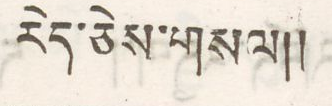རེད་ཅེས་གསལ།།
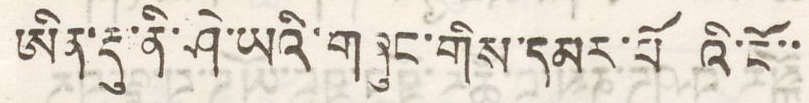ཨིན་རྡུ་ནི་ཤེ་ཡའི་གཞུང་གིས་དམར་པོ འི་ངོ་་་
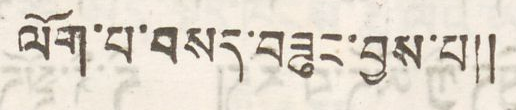ལོག་པ་བསད་བཟུང་བྱས་པ།།
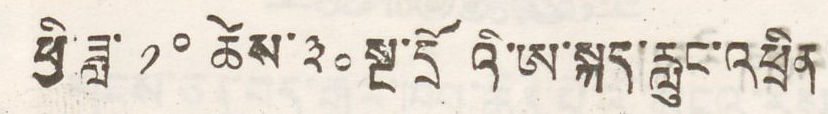ཕྱི་ཟླ་ ༡༠ ཚེས་ ༣༠ སྔ་དྲོའི་ཨ་སྐད་རླུང་འཕྲིན
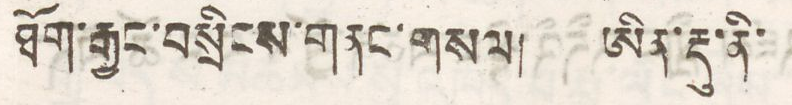ཐོག་རྒྱང་བསྲིངས་གནང་གསལ། ཨིན་རྡུ་ནི་
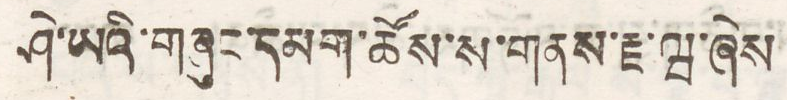ཤེ་ཡའི་གཞུང་དམག་ཚོས་ས་གནས་རྗ་ཝ་ཞེས
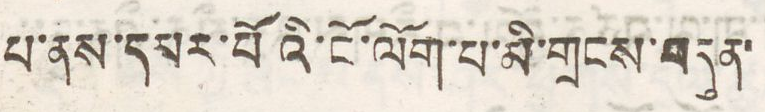པ་ནས་དམར་པོའི་ངོ་ལོག་པ་མི་གྲངས་བདུན་
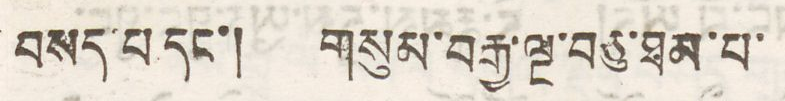བསད་པ་དང་། གསུམ་བརྒྱ་ལྔ་བཅུ་ཐམ་པ་
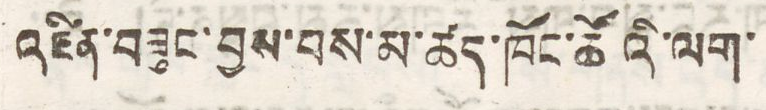འཛིན་ཟུང་བྱས་པས་མ་ཚད་ཁོང་ཚོའི་ལག་
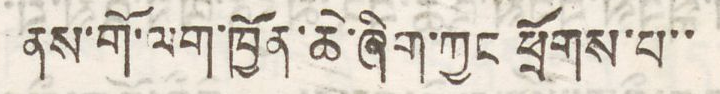ནས་གོ་ལག་ཁྱོན་ཆེ་ཞིག་ཀྱང ཕྲོགས་པ་་
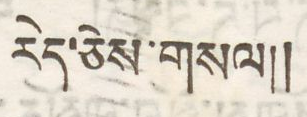རེད་ཅེས་གསལ།།
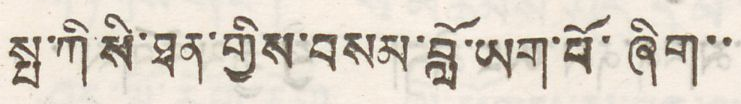སྤ་ཀི་སི་ཐན་གྱིས་བསམ་བློ་ཡག་པོ་ཞིག་་
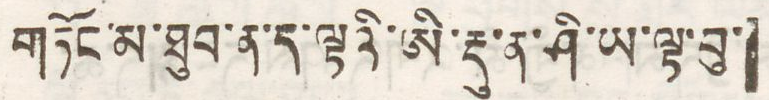གཏོང་མ་ཐུབ་ན་ད་ལྟའི་ཨི་རྡུ་ནི་ཤི་ཡའི་ལྟ་བུ་
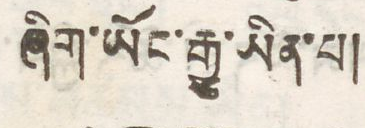ཞིག་ཡོང་རྒྱུ་ཡིན་པ།
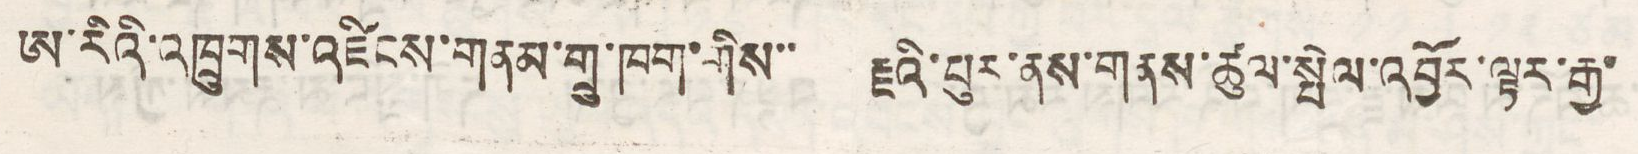ཨ་རིའི་འཁྲུགས་འཛིངས་གནས་གྲུ་ཁག་གིས་་ རྗའི་པུར་ནས་གནས་ཚུལ་སྤེལ་འབྱོར་ལྟར་རྒྱ་
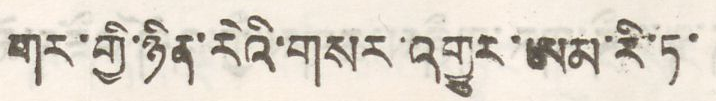གར་གྱི་ཉིན་རེའི་གསར་འགྱུར་ཨམ་རི་ཏ་
